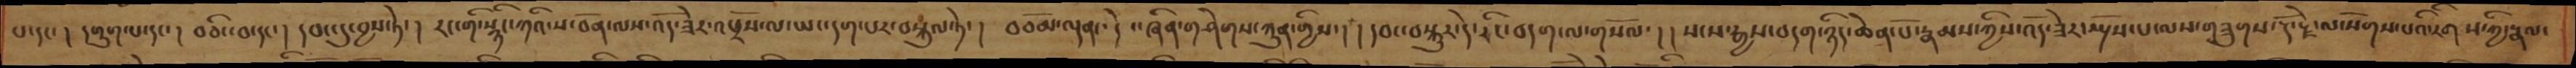པ་དང་། དགུག་པ་དང་ ། བཅིང་བ་དང་། དབང་དུ་བྱས་ཏེ་། རང་གི་སྙིང་ཀའི་ས་བོན་ལས་འོད་ཟེར་འཕྲོས་ལ་ཡང་དག་པར་བསྐུལ་ཏེ་ ། བཅོམ་ལྡན་དེ བཞིན་གཤེགས་ཀུན་གྱིས་། །དབང་བསྐུར་དེ་རིང་བདག་ལ་གསོལ་། །སངས་རྒྱས་བདག་ཉིད་ཆེན་པོ་རྣམས་ཀྱིས་འོད་ཟེར་སྤྲོས་པ་ལས་གཟུགས་རྡོ་རྗེ་ལ་སོགས་པའི་རིགས་ཀྱི་རྣལ་
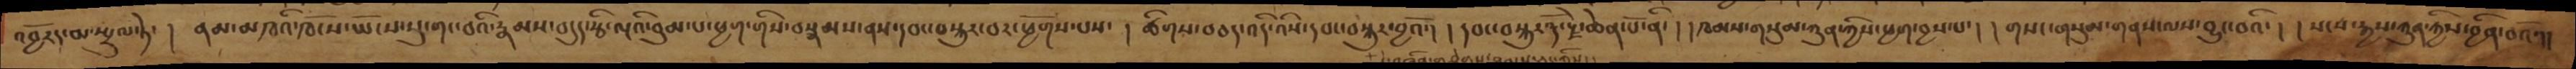འབྱོརད་མ་སྤྲུལ་ཏེ་། ནམ་མཁའི་ཁོངས་ཡོངས་སུ་གང་བའི་རྣམས་བདུད་རྩི་ལྔའི་བུམ་པ་ཕྱག་གིས་བསྣམས་ནས་དབང་བསྐུར་བར་ཕྱོགས་པས་། ཚིགས་བཅད་འདི་འིས་དབང་བསྐུར་བྱའོ་། །དབང་བསྐུར་རྡོ་རྗེ་ཆེན་པོ་ནི་། །ཁམས་གསུམ་ཀུན་ཀྱིས་ཕྱག་བྱས་པ་། །གསང་གསུམ་གནས་ལས་བྱུང་བའི་། །སངས་རྒྱས་ཀུན་ཀྱིས་བྱིན་བའོ་།།
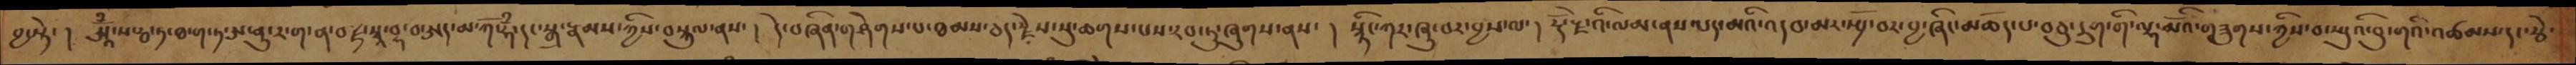བྱ་སྟེ་། ཨཱོྃ་སརྦ་ཏ་ཐ་ག་ཏ་ཨ་ནུ་ར་ག་ན་བཛྲ་སྭཱ་བྷ་བ་ཨད་མ་ོ་ཧྃ་དང་སྒྲ་རྣམས་ཀྱིས་བསྐུལ་ནས་། དེ་བཞིན་གཤེགས་པ་ཐམས་ཅད་རྗེས་སུ་ཆགས་པས་རབ་ཏུ་ཞུགས་ནས་། སྙིང་ཀར་ཞུ་བར་བྱས་ལ་། རྡོ་རྗེ་འི་ལམ་ནས་པད་མའི་འདབ་མར་སོད་བར་བྱ་ཞིང་མཆོད་པ་བཅུ་དྲུག་གི་ལྷ་མོའི་གཟུགས་ཀྱིས་བ་སྤུའི་བུ་གའི་མཚམས་དང་རྩེ་
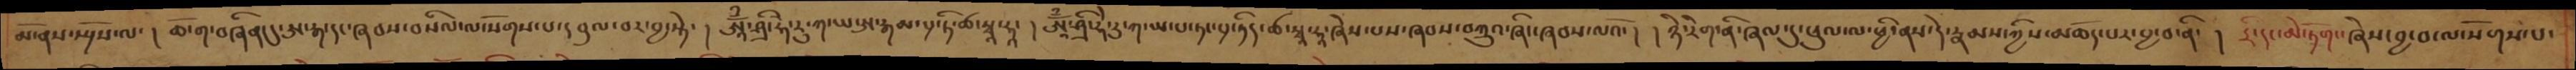མོ་ནས་སྤྲོས་ལ་། ཆོ་ག་བཞིནདདུ་ཨ་རྒ་དང་ཞབས་བསིལ་ལ་སོགས་པ་དབུལ་བར་བྱ་སྟེ་། ཨཱོྃ་ཤྲི་ཧེ་རུ་ཀ་ཡ་ཨ་རྒམ་པྲ་ཏི་ཚ་སྭཱ་ཧཱ་། ཨཱོཾ་ཤྲི་ཧེ་རུ་ཀ་ཡ་པ་ཏང་པྲ་ཏིར་ཚ་སྭཱ་ཧཱ་ཞེས་པས་ཞབས་བཀྲུའ་ཞིང་ཞབས་ལའོ་། །ཉེ་རིག་ནི་ཞལ་དུ་ཕུལ་ལ་ཕྱི་ནས་དེ་རྣམས་ཀྱིས་མཆོད་པར་བྱ་བ་ནི་། དྲི་དང་མེ་ཏོག་ཞེས་བྱ་བ་ལ་སོགས་པ་
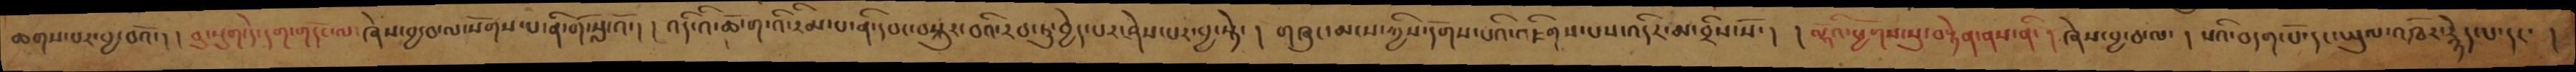ཆགས་པར་བྱ་བའོ་། བུ་སྡུག་དེ་དག་གདོང་ལ་ཞེས་བྱ་བ་ལ་སོགས་པ་ནི་གོ་སླ་འོ་། །འདི་འི་ཆོ་ག་འི་རིམ་པ་ནི་དབང་བསྐུར་བའི་རབ་ཏུ་བྱེད་པར་ཤེས་པར་བྱ་སྟེ་། གཞུང་མངས་ཀྱིས་དགོས་པའི་འཇིགས་པས་འདིར་མ་བྲིས་སོ་། །ལྷོའི་ཕྱོགས་སུ་བསྟེན་ནས་ནི་། ཞེས་བྱ་བ་ལ་། སའི་བདག་པོ་དང་ཡུལ་འཁོར་རྙེད་པ་དང་།
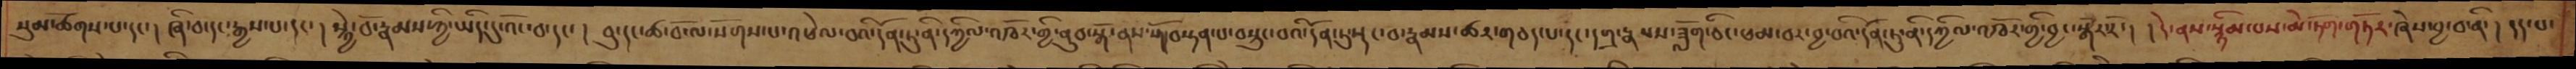སུམ་ཚོགས་པ་དང་། ཞི་བ་དང་རྒྱས་པ་དང་། སྐྱེ་བོ་རྣམས་ཀྱི་ཡིད་དུ་འོང་བ་དང་། བུ་དང་ཚ་བོ་ལ་སོགས་པ་འཕེལ་བའི་དོན་ཏུ་ནི་དཀྱིལ་འཁོར་གྱི་ནུབ་སྒོ་ནས་སོ།བསྟན་པ་བསྲུང་བའི་དོན་ཏུ་སྡང་བ་རྣམས་ཚར་གཅད་པ་དང་དགྲ་རྣམས་ཟློག་ཅིང་ཕམ་བར་བྱ་བའི་དོན་ཏུ་ནི་དཀྱིལ་འཁོར་གྱི་བྱང་སྒོར་རོ་། །དེ་ནས་སྙིམ་པས་མེ་ཏོག་གཏོར་ཞེས་བྱ་བ་ནི་། དད་པ་
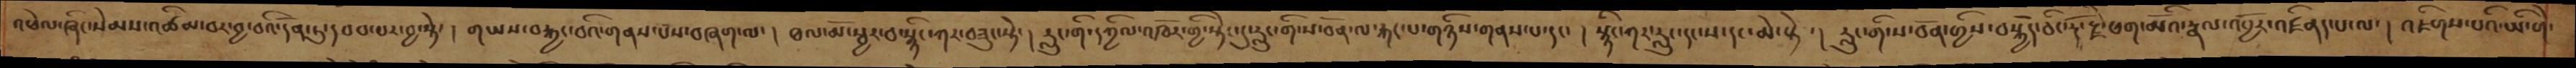འཕེལ་ཞིང་སེམས་འཚིམ་བར་བྱ་བའི་དོན་ཏུ་དབབ་པར་བྱ་སྟེ་ ། གཡས་བརྐྱང་བའི་གནས་པས་བཞག་ལ་ ། ཐལ་མོ་སྦྱར་བ་སྙིང་ཀར་བཟུང་སྟེ་ ། རླུང་གི་དཀྱིལ་འཁོར་གྱི་སྡེང་དུ་རླུང་གི་ས་བོན་ལ་རྐང་པ་གཉིས་གནས་པ་དང་ ། སྙིང་ཀར་རླུང་དང་ས་དང་མེ་སྟེ་ ། རླུང་གི་ས་བོན་གྱིས་བསྐྱོད་ཅིང་རྡོ་རྗེ་ཕག་མོའི་རྣལ་འབྱོར་འཛིནད་པ་ལ་ ། འཇིགས་པའི་ཡི་གེ་
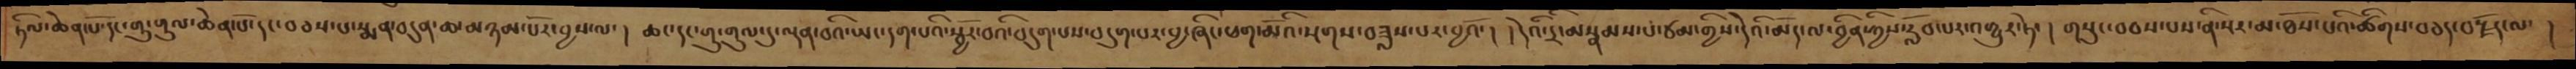ཏིལ་ཆེན་པོ་དང་གུ་གུལ་ཆེན་པོ་དང་བཅས་པ་སྨན་བདུན་ཆ་མཉམ་པོར་བྱས་ལ་། ཆང་དང་གུ་གུལ་དུ་ལྡན་བའི་ཡང་དག་པའི་སྦྱོར་བའི་བདུག་པས་བདུག་པར་བྱ་ཞིང་ཕག་མོའི་སྔགས་བཟླས་པར་བྱའོ་། །དེའི་དྲི་མསྣམས་པ་ཙམ་གྱིས་དེའི་མོད་ལ་བྱིན་ཀྱིས་རློབ་པར་འགྱུར་ཏེ་། གསུང་བཅས་པས་ནི་སར་མ་ཐོས་པའི་ཚིགས་བཅད་བརྗོད་ལ་ །
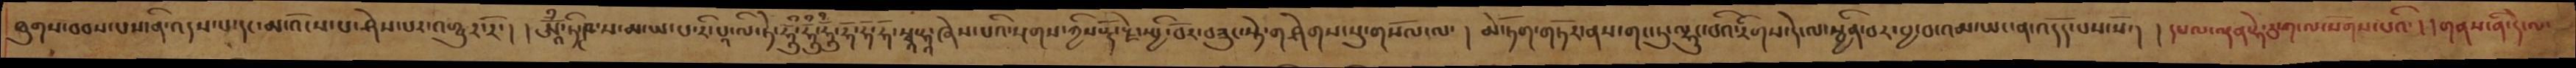ཐུགས་བབས་པས་ནི་འདས་པ་དང་མ་འོངས་པ་ཤེས་པར་འགྱུར་རོ་། །ཨཱོྃ་ཏཱི་ཥ་ས་མ་ཡ་པ་རི་པཱ་ལི་ཏེ་ཧཱུྃ་ཧཱུྃ་ཧཱུྃ་ཧོ་ཧོ་ཧོ་སྭཱ་ཧཱ་ཞེས་པའི་སྔགས་ཀྱིས་རྡོ་རྗེ་སྤྱི་བོར་བཟུང་སྟེ་གཤེགས་སུ་གསོལ་ལ་ ། མེ་ཏོག་གཏོར་ནས་གང་ཏུ་ལྷུང་བའི་རིགས་དེ་ལ་སྦྱིན་བར་བྱ་བ་འམ་ཡང་ན་འདོད་པས་སོ་། །དཔལ་ལྡན་ཧེ་རུ་ཀ་ལ་སོགས་པའི་ ། །གནས་ནི་དེ་ལ་
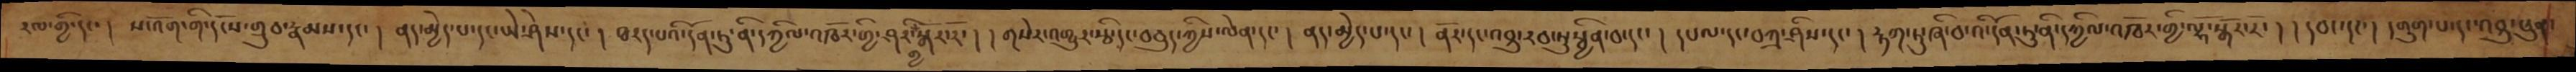རལ་གྱི་དང་། ས་འོག་གི་དངོས་གྲུབ་རྣམས་དང་ ། ནད་མྱེད་པ་དང་ཡེ་ཤེས་དང་ །ཐརད་པའི་དོན་ཏུ་ནི་དཀྱིལ་འཁོར་གྱི་ཤར་གྱི་སྒོར་རོ་། །གསེར་འགྱུར་རྩི་དང་བཅུད་ཀྱིས་ལེན་དང་། ནད་མྱེད་པ་དང་། ནོར་དང་འབྲུ་རབ་ཏུ་སྦྱིན་བ་དང་། །དཔལ་དང་བཀྲ་ཤིས་དང་། རྟག་ཏུ་ཞི་བ་འི་དོན་ཏུ་ནི་དཀྱིལ་འཁོར་གྱི་ལྷོ་སྒོར་རོ་ ། །དབང་དང་། དགུག་པ་དང་འབྲུ་ཕུན་
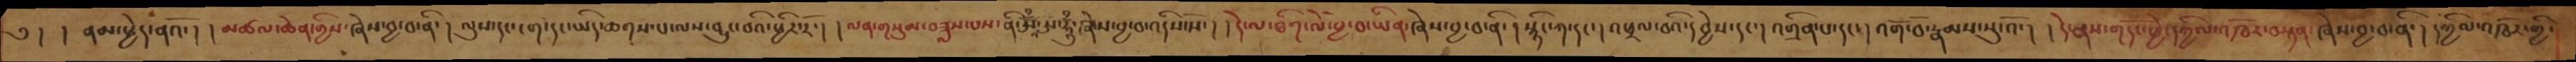༄། །ནམ་ཕྱེད་ནའོ་། །མཚལ་ཆེན་གྱིས་ཞེས་བྱ་བ་ནི་། ལུས་དང་ངག་དང་ཡིད་ཆགས་པ་ལས་བྱུང་བའི་ཕྱིར་རོ་། །ལན་གསུམ་བཟླས་པས་ནི་ཨཱོྃ་ཨ་ཧཱུྃ་ཞེས་བྱ་བ་འདིས་སོ་། །དེ་ལ་ཐིག་ལེ་བྱ་བ་ཡིན་ཞེས་བྱ་བ་ནི་། སྙིང་ཀ་དང་། འཕྲལ་བའི་དབྱེས་དང་། འགྲིན་པ་དང་། འགོ་བོ་རྣམས་སུ་འོ་། །དེ་ནས་གདོང་ཕྱེ་དཀྱིལ་འཁོར་བསྟན་ཞེས་བྱ་བ་ནི་།དཀྱིལ་འཁོར་གྱི་
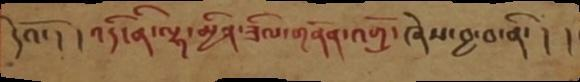དེའོ་། ། འདི་ནི་ལྷ་མྱིན་ཟིལ་གནོན་འགྲོ་ཞེས་བྱ་བ་ནི་། །
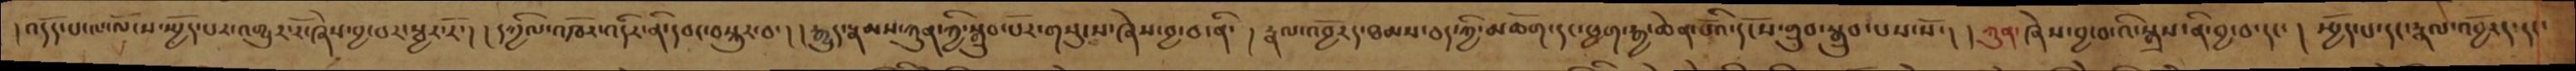།འདོད་པ་ལ་ལོངས་སྤྱོད་པར་འགྱུར་རོ་ཞེས་བྱ་བར་སྦྱར་རོ་། །དཀྱིལ་འཁོར་འདིར་ནི་དབང་བསྐུར་བ་། །རྒྱུད་རྣམས་ཀུན་ཀྱི་སྒྲུབ་པོར་གསུངས་ཞེས་བྱ་བ་ནི་ ། རྣལ་འབྱོརད་ཐམས་ཅད་ཀྱི་མཆོག་དང་ཕྱག་རྒྱ་ཆེན་པོའི་དངོས་གྲུབ་སྒྲུབ་པས་སོ་། །ཀུན་ཞེས་བྱ་བ་འི་སྒྲས་ནི་བྱ་བ་དང་ ། སྤྱོད་པ་དང་རྣལ་འབྱོརད་དང་
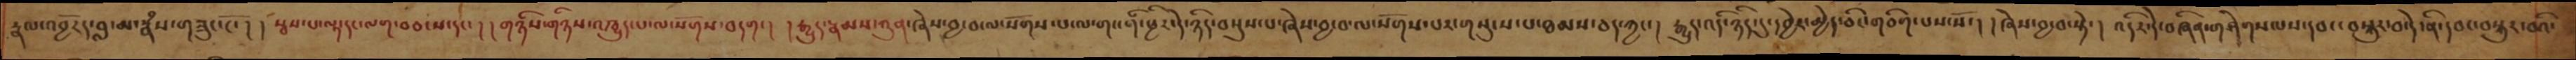རྣལ་འབྱོརད་བླ་མ་རྣཾས་གཟུང་ངོ་། །རྩས་པ་ལྷ་དང་ལག་བཅངས་དང་། །གཉིས་གཉིས་འཁྱུད་པ་ལ་སོགས་བདག་། །རྒྱུད་རྣམས་ཀུན་ཞེས་བྱ་བ་ལ་སོགས་པ་ལ་གང་གི་ཕྱིར་དེ་ཉིད་བསྡུས་པ་ཞེས་བྱ་བ་ལ་སོགས་པར་གསུངས་པ་ཐམས་ཅད་ཀྱང་། རྒྱུད་འདི་ཉིད་དུ་དབྱེར་མྱེད་ཅིང་གཅིག་པས་སོ་། །ཞེས་བྱ་བ་སྟེ་། འདིར་དེ་བཞིན་གཤེགས་པས་དབང་བསྐུར་བ་དེ་ནི་དབང་བསྐུར་བའི་
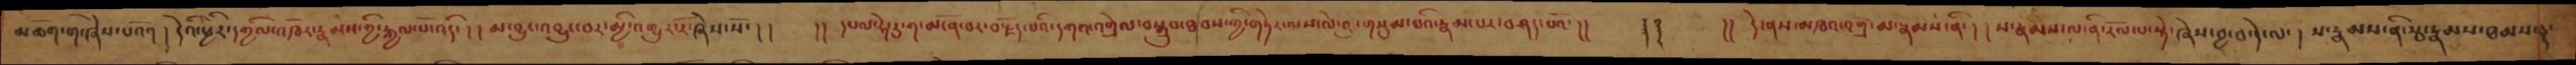མཆོག་གི་ཞེས་པའོ་། དེའི་ཕྱིར་དཀྱིལ་འཁོར་རྣམས་ཀྱི་རྒྱལ་པོ་འདི་། །མ་བྱུང་འབྱུང་བར་མྱི་འགྱུར་རོ་ཞེས་སོ་།། །།དཔལ་ཧེ་རུ་ག་མངོན་པར་བརྗོད་པའི་དཀའ་འགྲེལ་བསྒྲུབ་ཐབས་ཀྱི་གཏེར་ལས་ལེ་འུ་གསུམ་པའི་རྣམ་པར་བཤད་པའོ་།།     ࿑࿑  །། དེ་ནས་མཁའ་འགྲོ་མ་རྣམས་ནི་།། ས་རྣམས་ལ་ནི་རོལ་པ་སྟེ་ཞེས་བྱ་བ་དེ་ལ་། ས་རྣམས་ནི་རྩ་རྣམས་ཐམས་ཅད་
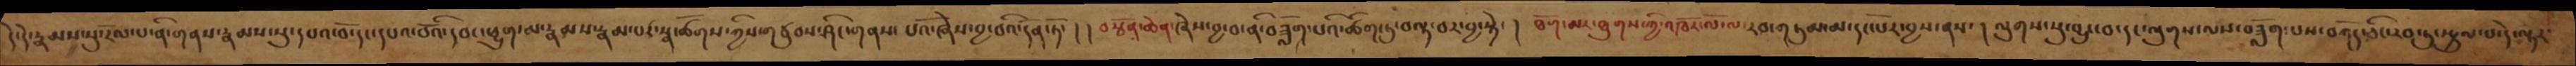དེ་དེ་རྣམས་སུ་རོལ་པ་ནི་གནས་རྣམས་སུ་དཔའ་བོ་དང་དཔའ་བོའི་དབང་ཕྱུག་མ་རྣམས་རྣམ་པར་སྣ་ཚོགས་ཀྱིས་གཙུབས་ཤིང་གནས་པའོ་ཞེས་བྱ་བའི་དོན་ཏོ་། །བརྩོན་ཆེན་ཞེས་བྱ་བ་ནི་བཟློག་པའི་ཚིག་ཏུ་བལྟ་བར་བྱ་སྟེ་།  ཐོག་མར་ཐུགས་ཀྱི་འཁོར་ལོ་ལ་རབ་གཏུམ་མ་དང་པོར་བྱས་ནས་།  ལུགས་སུ་བྱུང་བ་དང་ལུགས་ལས་བཟློག་པས་བཀོད་ཅིང་རབ་ཏུ་སྤྲུལ་པ་དེ་ལྟར་
